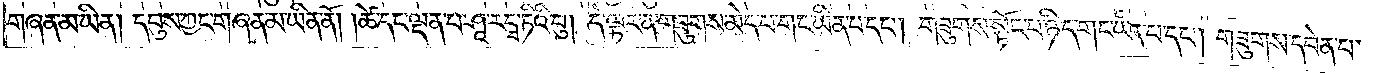གཞན་མ་ཡིན། དབུས་ཀྱང་གཞན་མ་ཡིན་ནོ། །ཚེ་དང་ལྡན་པ་ཤཱ་རདྭ་ཏིའི་བུ། དེ་ལྟར་ན་གཟུགས་མེད་པ་གང་ཡིན་པ་དང༌། གཟུགས་སྟོང་པ་ཉིད་གང་ཡིན་པ་དང༌། གཟུགས་དབེན་པ་
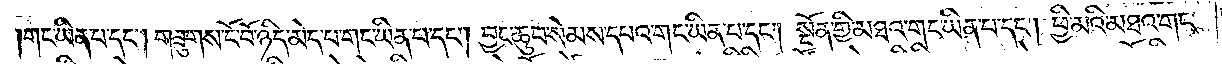གང་ཡིན་པ་དང༌། གཟུགས་ངོ་བོ་ཉིད་མེད་པ་གང་ཡིན་པ་དང༌། བྱང་ཆུབ་སེམས་དཔའ་གང་ཡིན་པ་དང༌། སྔོན་གྱི་མཐའ་གང་ཡིན་པ་དང༌། ཕྱི་མའི་མཐའ་གང་
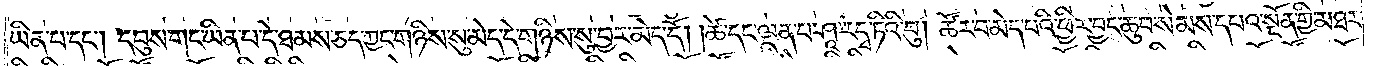ཡིན་པ་དང༌། དབུས་གང་ཡིན་པ་དེ་ཐམས་ཅད་ཀྱང་གཉིས་སུ་མེད་དེ་གཉིས་སུ་བྱར་མེད་དོ། །ཚེ་དང་ལྡན་པ་ཤཱ་རདྭ་ཏིའི་བུ། ཚོར་བ་མེད་པའི་ཕྱིར་བྱང་ཆུབ་སེམས་དཔའ་སྔོན་གྱི་མཐར་
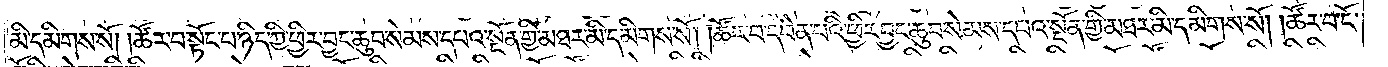མི་དམིགས་སོ། །ཚོར་བ་སྟོང་པ་ཉིད་ཀྱི་ཕྱིར་བྱང་ཆུབ་སེམས་དཔའ་སྔོན་གྱི་མཐར་མི་དམིགས་སོ། །ཚོར་བ་དབེན་པའི་ཕྱིར་བྱང་ཆུབ་སེམས་དཔའ་སྔོན་གྱི་མཐར་མི་དམིགས་སོ། །ཚོར་བ་ངོ་
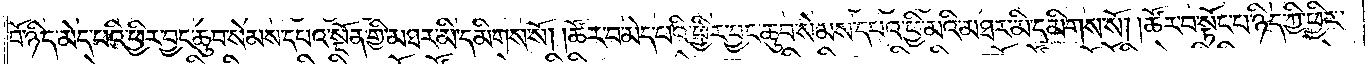བོ་ཉིད་མེད་པའི་ཕྱིར་བྱང་ཆུབ་སེམས་དཔའ་སྔོན་གྱི་མཐར་མི་དམིགས་སོ། །ཚོར་བ་མེད་པའི་ཕྱིར་བྱང་ཆུབ་སེམས་དཔའ་ཕྱི་མའི་མཐར་མི་དམིགས་སོ། །ཚོར་བ་སྟོང་པ་ཉིད་ཀྱི་ཕྱིར་
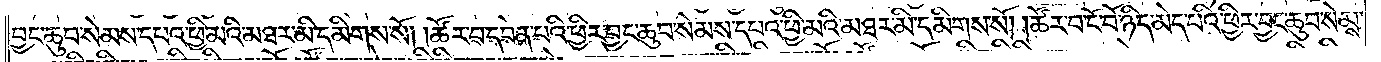བྱང་ཆུབ་སེམས་དཔའ་ཕྱི་མའི་མཐར་མི་དམིགས་སོ། །ཚོར་བ་དབེན་པའི་ཕྱིར་བྱང་ཆུབ་སེམས་དཔའ་ཕྱི་མའི་མཐར་མི་དམིགས་སོ། །ཚོར་བ་ངོ་བོ་ཉིད་མེད་པའི་ཕྱིར་བྱང་ཆུབ་སེམས་
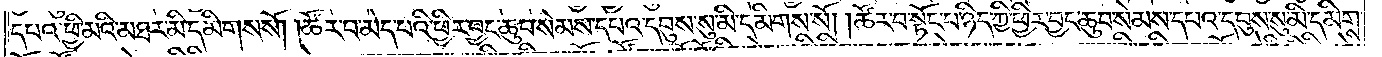དཔའ་ཕྱི་མའི་མཐར་མི་དམིགས་སོ། །ཚོར་བ་མེད་པའི་ཕྱིར་བྱང་ཆུབ་སེམས་དཔའ་དབུས་སུ་མི་དམིགས་སོ། །ཚོར་བ་སྟོང་པ་ཉིད་ཀྱི་ཕྱིར་བྱང་ཆུབ་སེམས་དཔའ་དབུས་སུ་མི་དམིགས་
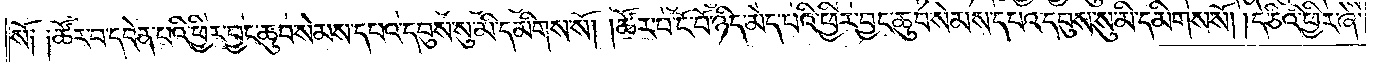སོ༑ ༑ཚོར་བ་དབེན་པའི་ཕྱིར་བྱང་ཆུབ་སེམས་དཔའ་དབུས་སུ་མི་དམིགས་སོ། །ཚོར་བ་ངོ་བོ་ཉིད་མེད་པའི་ཕྱིར་བྱང་ཆུབ་སེམས་དཔའ་དབུས་སུ་མི་དམིགས་སོ། །དེ་ཅིའི་ཕྱིར་ཞེ་
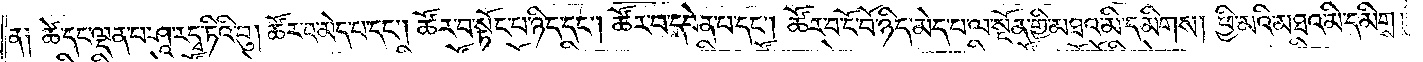ན༑ ཚེ་དང་ལྡན་པ་ཤཱ་རདྭ་ཏིའི་བུ། ཚོར་བ་མེད་པ་དང༌། ཚོར་བ་སྟོང་པ་ཉིད་དང་ཚོར་བ་དབེན་པ་དང༌། ཚོར་བ་ངོ་བོ་ཉིད་མེད་པ་ལ་སྔོན་གྱི་མཐའ་མི་དམིགས། ཕྱི་མའི་མཐའ་མི་དམིགས།
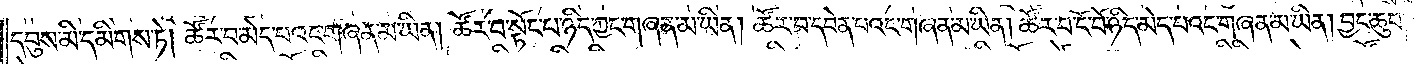དབུས་མི་དམིགས་ཏེ། ཚོར་བ་མེད་པའང་གཞན་མ་ཡིན། ཚོར་བ་སྟོང་པ་ཉིད་ཀྱང་གཞན་མ་ཡིན། ཚོར་བ་དབེན་པའང་གཞན་མ་ཡིན། ཚོར་བ་ངོ་བོ་ཉིད་མེད་པའང་གཞན་མ་ཡིན། བྱང་ཆུབ་
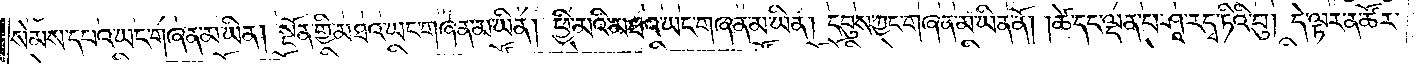སེམས་དཔའ་ཡང་གཞན་མ་ཡིན། སྔོན་གྱི་མཐའ་ཡང་གཞན་མ་ཡིན། ཕྱི་མའི་མཐའ་ཡང་གཞན་མ་ཡིན། དབུས་ཀྱང་གཞན་མ་ཡིན་ནོ། །ཚེ་དང་ལྡན་པ་ཤཱ་རདྭ་ཏིའི་བུ། དེ་ལྟར་ན་ཚོར་
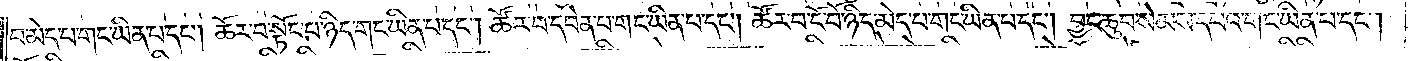བ་མེད་པ་གང་ཡིན་པ་དང༌། ཚོར་བ་སྟོང་པ་ཉིད་གང་ཡིན་པ་དང༌། ཚོར་བ་དབེན་པ་གང་ཡིན་པ་དང༌། ཚོར་བ་ངོ་བོ་ཉིད་མེད་པ་གང་ཡིན་པ་དང༌། བྱང་ཆུབ་སེམས་དཔའ་གང་ཡིན་པ་དང༌།
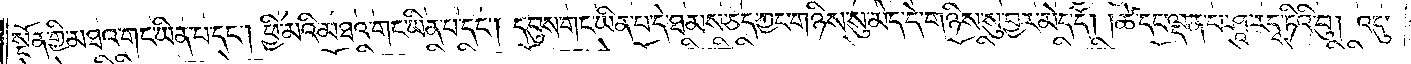སྔོན་གྱི་མཐའ་གང་ཡིན་པ་དང༌། ཕྱི་མའི་མཐའ་གང་ཡིན་པ་དང༌། དབུས་གང་ཡིན་པ་དེ་ཐམས་ཅད་ཀྱང་གཉིས་སུ་མེད་དེ་གཉིས་སུ་བྱར་མེད་དོ། །ཚེ་དང་ལྡན་པ་ཤཱ་རདྭ་ཏིའི་བུ། འདུ་
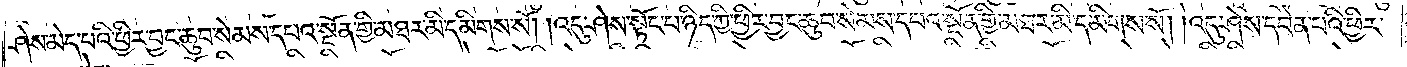ཤེས་མེད་པའི་ཕྱིར་བྱང་ཆུབ་སེམས་དཔའ་སྔོན་གྱི་མཐར་མི་དམིགས་སོ། །འདུ་ཤེས་སྟོང་པ་ཉིད་ཀྱི་ཕྱིར་བྱང་ཆུབ་སེམས་དཔའ་སྔོན་གྱི་མཐར་མི་དམིགས་སོ། །འདུ་ཤེས་དབེན་པའི་ཕྱིར་
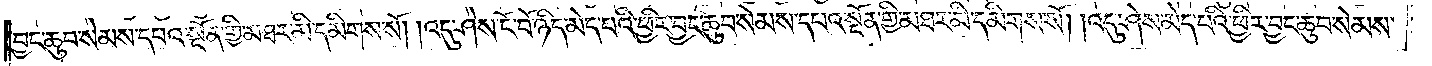བྱང་ཆུབ་སེམས་དཔའ་སྔོན་གྱི་མཐར་མི་དམིགས་སོ། །འདུ་ཤེས་ངོ་བོ་ཉིད་མེད་པའི་ཕྱིར་བྱང་ཆུབ་སེམས་དཔའ་སྔོན་གྱི་མཐར་མི་དམིགས་སོ། །འདུ་ཤེས་མེད་པའི་ཕྱིར་བྱང་ཆུབ་སེམས་
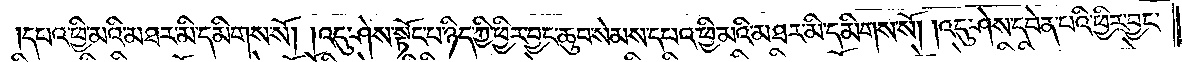དཔའ་ཕྱི་མའི་མཐར་མི་དམིགས་སོ། །འདུ་ཤེས་སྟོང་པ་ཉིད་ཀྱི་ཕྱིར་བྱང་ཆུབ་སེམས་དཔའ་ཕྱི་མའི་མཐར་མི་དམིགས་སོ། །འདུ་ཤེས་དབེན་པའི་ཕྱིར་བྱང་
